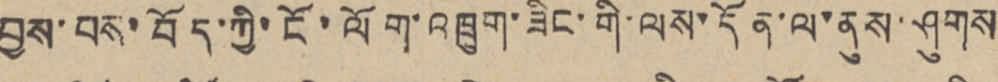བྱས་པས་བོད་ཀྱི་ངོ་ལོག་འཁྲུག་ཟིང་གི་ལས་དོན་ལ་ནུས་ཤུགས
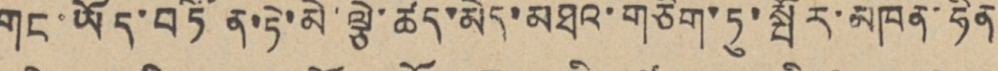གང་ཡོད་བཏོན་ཏེ་མེ་ལྕེ་ཚད་མེད་མཐའ་གཅིག་ཏུ་སྤོར་མཁན་ཧིན
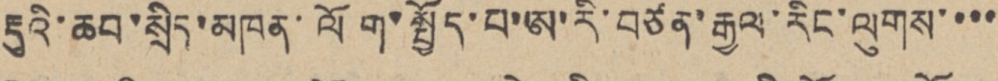རྡུའི་ཆབ་སྲིད་མཁན་ལོག་སྤྱོད་པ་ཨ་རི་བཙན་རྒྱལ་རིང་ལུགས་་་་
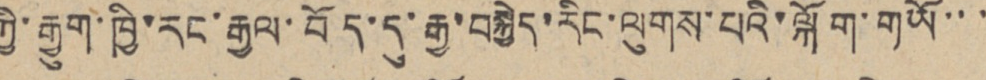ཀྱི་རྒྱུག་ཁྱི་རང་རྒྱལ་བོད་དུ་རྒྱ་བསྐྱེད་རིང་ལུགས་པའི་ལྐོག་གཡོ་་་
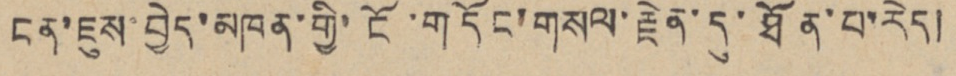ངན་ཇུས་བྱེད་མཁན་གྱི་ངོ་གདོང་གསལ་རྗེན་དུ་ཐོན་པ་རེད།
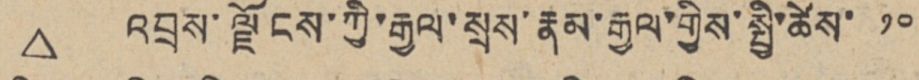△ འབྲས་ལྗོངས་ཀྱི་རྒྱལ་སྲས་རྣམ་རྒྱལ་གྱིས་སྤྱི་ཚེས་ ༡༠
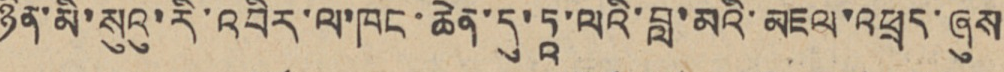ཉིན་མི་སུའུ་རི་འབིར་ལ་ཁང་ཆེན་དུ་ཏཱ་ལའི་བླ་མའི་མཇལ་འཕྲད་ཞུས
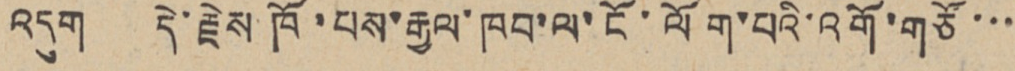འདུག དེ་རྗེས་ཁོ་པས་རྒྱལ་ཁབ་ལ་ངོ་ལོག་པའི་འགོ་གཙོ་་་
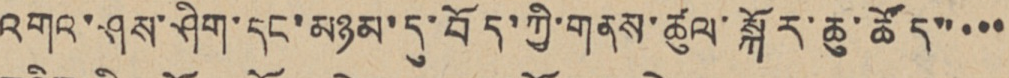འགའ་ཤས་ཤིག་དང་མཉམ་དུ་བོད་ཀྱི་གནས་ཚུལ་སྐོར་ཆུ་ཚོད་་་་་
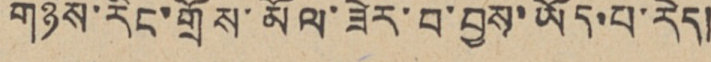གཉིས་རིང་གྲོས་མོལ་ཟེར་བ་བྱས་ཡོད་པ་རེད།
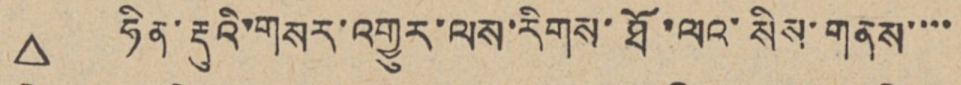△ ཧིན་རྡུའི་གསར་འགྱུར་ལས་རིགས་ཐོ་ལའ་སིས་གནས་་་་
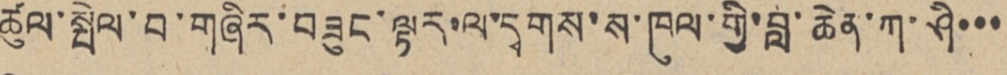ཚུལ་སྤེལ་བ་གཞིར་བཟུང་ལྟར་ལ་དྭགས་ས་ཁུལ་གྱི་བླ་ཆེན་ཀ་ཤི་་་
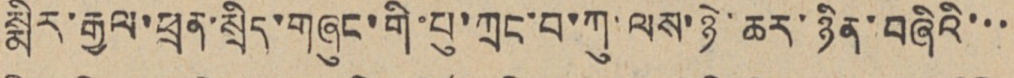སྨིར་རྒྱལ་ཕྲན་སྲིད་གཞུང་གི་པུ་ཀྲང་བ་ཀུ་ལས་ཉེ་ཆར་ཉིན་བཞིའི་་་
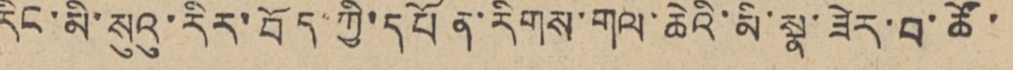རིང་མི་སུའུ་རིར་བོད་ཀྱི་དཔོན་རིགས་གལ་ཆེའི་མི་སྣ་ཟེར་བ་ཚོ་
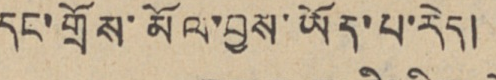དང་གྲོས་མོལ་བྱས་ཡོད་པ་རེད།
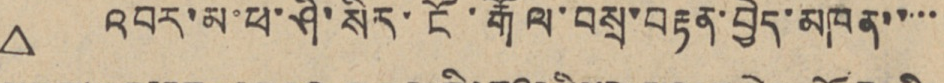△ འབར་མ་ཕ་ཤི་སིར་ངོ་རྒོལ་བསྲ་བརྟན་བྱེད་མཁན་་་་་
